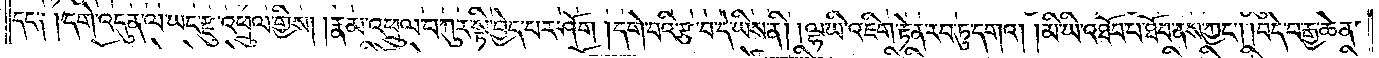དང་༑ །དགེ་འདུན་ལ་ཡང་རྫུ་འཕྲུལ་གྱིས། །རྣམ་འཕྲུལ་བཀུར་སྟི་བྱེད་པར་ཤོག །དགེ་བའི་རྩ་བ་དེ་ཡིས་ནི། །ལྷ་ཡི་འཇིག་རྟེན་རབ་ཏུ་དགའ། །མི་ཡི་འཐོབ་པ་ཐོབ་ནས་ཀྱང༌། །བདེ་བ་རྒྱ་ཆེན་
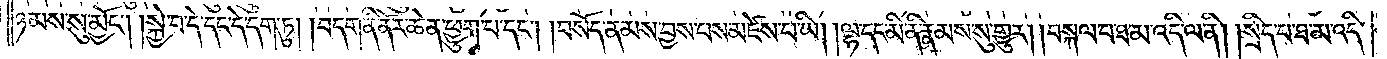ཉམས་སུ་མྱོང༌། །སྐྱེ་བ་དེ་དང་དེ་དག་ཏུ། །བདག་ནི་ནོར་ཆེན་ཕྱུག་པ་དང༌། །བསོད་ནམས་བྱས་པས་མཛེས་པ་ཡི། །ལྷ་དང་མི་ནི་རྣམས་སུ་གྱུར། །བསྐལ་པ་ཐ་མ་འདི་ལ་ནི། །སྲིད་པ་ཐ་མ་འདི་
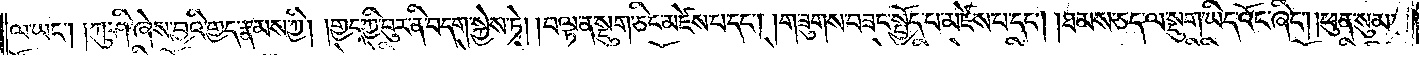ལ་ཡང༌། །ཀུ་ཤི་ཞེས་བྱའི་གྱད་རྣམས་ཀྱི། །གྱད་ཀྱི་བུར་ནི་བདག་སྐྱེས་ཏེ། །བལྟ་ན་སྡུག་ཅིང་མཛེས་པ་དང༌། །གཟུགས་བཟང་སྤྱོད་པ་མཛེས་པ་དང༌། །ཐམས་ཅད་ལ་སྡུག་ཡིད་འོང་ཞིང༌། །ཕུན་སུམ་
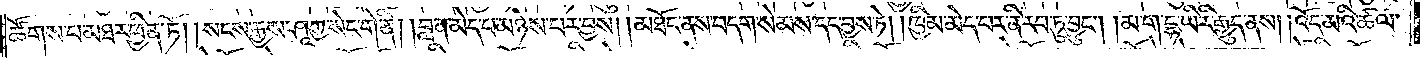ཚོགས་པ་མཐར་ཕྱིན་ཏོ། །སངས་རྒྱས་ཤཱཀྱ་སེང་གེ་ནི། །བླ་ན་མེད་པ་མཉེས་པར་བྱས། །མཐོང་ནས་བདག་སེམས་དད་བྱས་ཏེ། །ཁྱིམ་མེད་པར་ནི་རབ་ཏུ་བྱུང༌། །མ་ག་དྷ་ཡི་རི་རྒྱུད་ནས། །འོད་མའི་ཚལ་
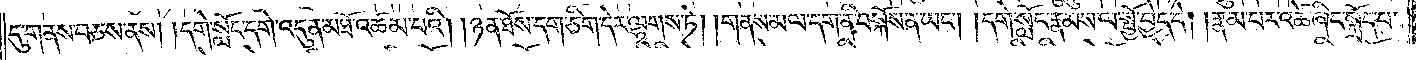དུ་གནས་བཅས་ནས། །དགེ་སློང་དགེ་འདུན་མཐོ་འཚམ་པའི། །ཉན་ཐོས་དག་ཅིག་དེར་ལྷགས་ཏེ། །གནས་མལ་དག་ནི་བསྐོས་ན་ཡང༌། །དགེ་སློང་རྣམས་ལ་སྤྱོ་བྱེད་དེ། །རྣམ་པར་འཚེ་ཞིང་སྐྲོད་པ་
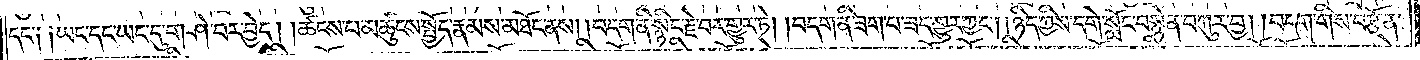དང་༑ ༑ཡང་དང་ཡང་དུ་གཤེ་བར་བྱེད། །ཚངས་པ་མཚུངས་སྤྱོད་རྣམས་མཐོང་ནས། །བདག་ནི་སྙིང་རྗེ་བར་གྱུར་ཏེ། །བདག་ནི་ཟག་པ་ཟད་གྱུར་ཀྱང༌། །ཉིད་ཀྱིས་དགེ་སློང་བསྙེན་བཀུར་བྱ། །བདག་གིས་བརྩོན་
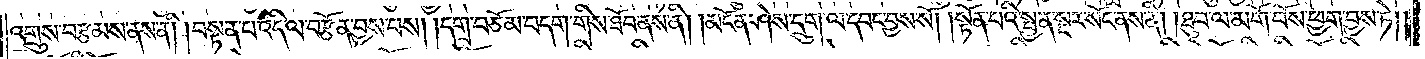འགྲུས་བརྩམས་ནས་ནི། །བསྟན་པ་འདི་ལ་བརྩོན་བྱས་པས། །དགྲ་བཅོམ་བདག་གིས་ཐོབ་ནས་ནི། །མངོན་ཤེས་དྲུག་ལ་དབང་བྱས་སོ། །སྟོན་པའི་སྤྱན་སྔར་སོང་ནས་ནི། །ཐུབ་ལ་མགོ་བོས་ཕྱག་བྱས་ཏེ༎
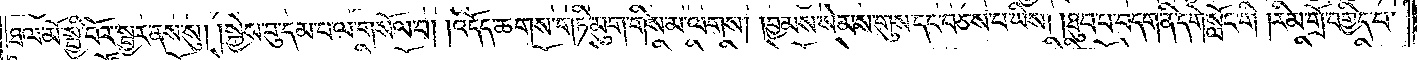ཐལ་མོ་སྤྱི་བོར་སྦྱར་ནས་སུ། །སྐྱེས་བུ་དམ་པ་ལ་གསོལ་བ། །འདོད་ཆགས་གཏི་མུག་གིས་མ་ལགས། །བྱམས་སེམས་གུས་དང་བཅས་པ་ཡིས། །ཐུབ་པ་བདག་ནི་དགེ་སློང་གི །རིམ་གྲོ་བགྱིད་པ་
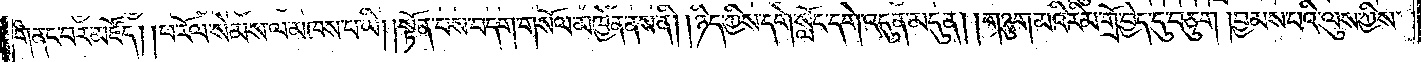གནང་བར་མཛོད། །ཕ་རོལ་སེམས་ལ་མཁས་པ་ཡི། །སྟོན་པས་བདག་གསོལ་མཁྱེན་ནས་ནི། །ཉིད་ཀྱིས་དགེ་སློང་དགེ་འདུན་མདུན། །གཉུག་མའི་རིམ་གྲོ་བྱེད་དུ་བཅུག །བྱམས་པའི་ལུས་ཀྱིས་
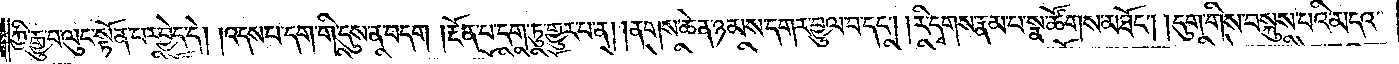ཀྱི་རྒྱུ་བ་ལུང་སྟོན་པར་བྱེད་དེ། །འདས་པ་དག་གི་དུས་ན་བདག །རྔོན་པ་དག་ཏུ་གྱུར་པ་ན། །ནགས་ཆེན་ཉམས་དགར་བྱུལ་བ་དང༌། །རི་དྭགས་རྣམ་པ་སྣ་ཚོགས་མཐོང༌། །དུག་གིས་བསྐུས་པའི་མདའ་
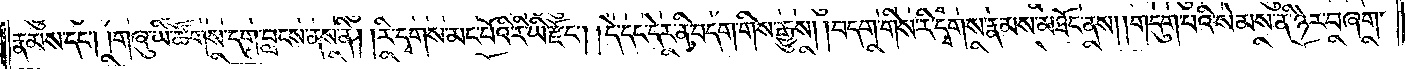རྣམས་དང༌། །གཞུ་ཡི་ཚོགས་དག་བླངས་ནས་ནི། །རི་དྭགས་མང་པོའི་རི་ཡི་རྫོང༌། །དེ་དང་དེར་ནི་བདག་གིས་རྒྱུས། །བདག་གིས་རི་དྭགས་རྣམས་མཐོང་ནས། །གདུག་པའི་སེམས་ནི་ཉེར་བཞག་
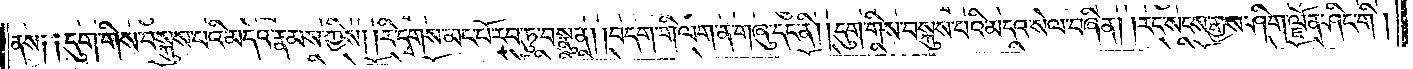ནས༑ ༑དུག་གིས་བསྐུས་པའི་མདའ་རྣམས་ཀྱིས། །རི་དྭགས་མང་པོ་རབ་ཏུ་བསྣུན། །བདག་གི་ལག་ན་གཞུ་དང་ནི། །དུག་གིས་བསྐུས་པའི་མདའ་སེལ་བཞིན། །རང་སངས་རྒྱས་ཤིག་ལྗོན་ཤིང་གི།
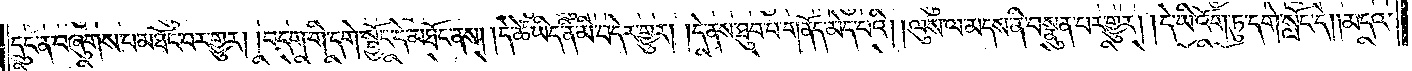དྲུང་ན་བཞུགས་པ་མཐོང་བར་གྱུར། །བདག་གི་དགེ་སྦྱོང་དེ་མཐོང་ནས། །དེ་ཚེ་ཡིད་ནི་མི་བདེར་གྱུར། །དེ་ནས་ཐུབ་པ་གནོད་མེད་པའི། །ལུས་ལ་མདས་ནི་བསྣུན་པར་གྱུར། །དེ་ཡི་འོག་ཏུ་དགེ་སློང་དེ། །མདའ་
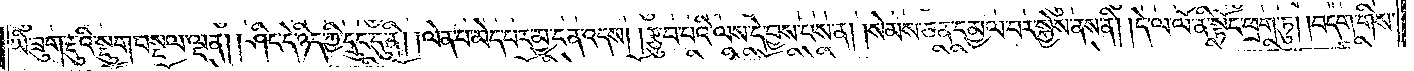ཡི་ཟུག་རྔུའི་སྡུག་བསྔལ་ལྡན། །ཤིང་དེ་ཉིད་ཀྱི་དྲུང་དུ་ནི། །ལེན་པ་མེད་པར་མྱ་ངན་འདས། །རྩུབ་པའི་ལས་དེ་བྱས་པས་ན། །སེམས་ཅན་དམྱལ་བར་སྐྱེས་ནས་ནི། །དེ་ལ་ལོ་ནི་སྟོང་ཕྲག་ཏུ། །བདག་གིས་
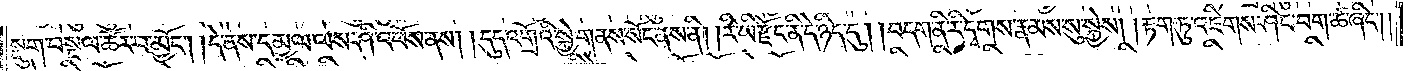སྡུག་བསྔལ་ཚོར་བ་མྱོང༌། །དེ་ནས་དམྱལ་ལས་ཤི་འཕོས་ནས། །དུད་འགྲོའི་སྐྱེ་གནས་སོང་ནས་ནི། །རི་ཡི་རྫོང་ནི་དེ་ཉིད་དུ། །བདག་ནི་རི་དྭགས་རྣམས་སུ་སྐྱེས། །རྟག་ཏུ་འཇིགས་ཤིང་བག་ཚ་ཞིང༌། །
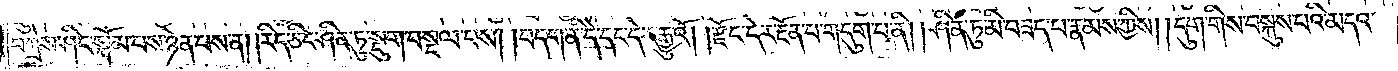བཀྲེས་ཤིང་སྐོམ་པས་ཉེན་པས་ན། །རིད་ཅིང་ཤིན་ཏུ་སྡུག་བསྔལ་པས། །བདག་ནི་དེ་དང་དེར་རྒྱུའོ། །རྫོང་དེར་རྔོན་པ་གདུག་པ་ནི། །ཤིན་ཏུ་མི་བཟད་པ་རྣམས་ཀྱིས། །དུག་གིས་བསྐུས་པའི་མདའ་
